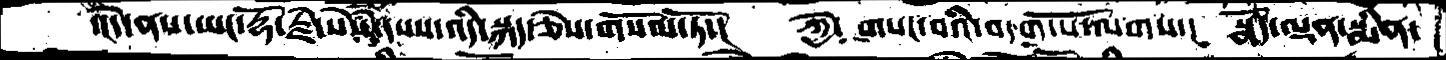་།དེ་ནས་ཡང་རྡོ་རྗེ་སེཾསདསས་འདི་སྐད་ཅེས་གསོལ་ཏོ་།  ཀྱེ་  གསང་བའི་བདག་པོ་ལགས་།  སྣོད་ལྡན་སྨིན་
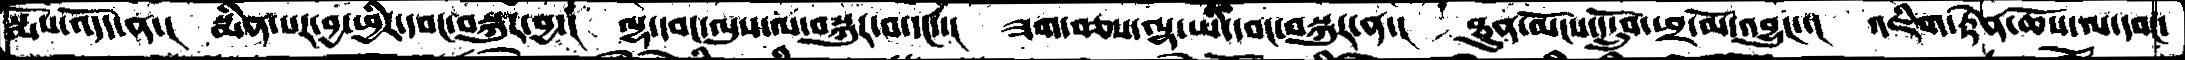སྨོས་འདོད་ན་།  སྨིན་པར་བྱ་ཕྱིར་དབང་བསྐུར་བྱ་།  ལྷ་དབང་ལུས་ལ་བསྐུར་བ་དང་་།  ཟག་བཅས་ལྷ་ཡི་དབང་བསྐུར་ན་།  ཐུན་མོངས་དངྲོུབ་ཕྲ་མོ་འབྱུང་་།  འཇིག་རྟེན་ཆོས་ལ་དབང་
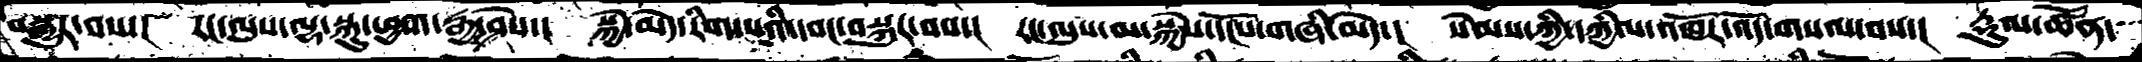བསྒྱུར་བས་།  རང་ལུས་ལྷ་སྐུ་ཕྱག་རྒྱ་ཤེས་།  སྐྱེ་མེད་རིག་པའི་དབང་བསྐུར་བས་།  རང་ལུས་མ་སྐྱེས་དངོས་གཞི་མེད་།  སེམས་ཀྱི་དཀྱིལ་འཁོར་འོད་གསལ་བས་།  རྡུལ་ཚོན་
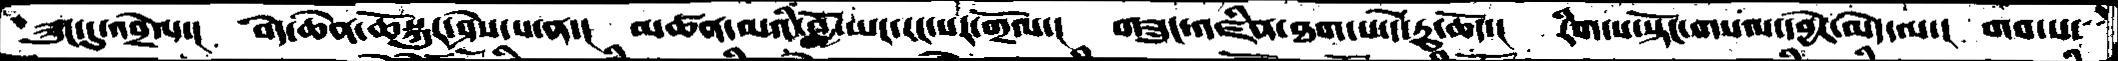ཟུང་དུ་འབྲེལ་།  བདེ་ཆེན་ཆོསྐུར་ཤེས་པ་ན་།  མཚན་མའི་བློ་ཡང་རང་སར་གྲོལ་།  གཟུང་འཛིན་ཐག་པ་དེ་རུ་ཆོད་།  རིག་པ་སྟོང་གསལ་དབྱེར་མེད་ལ་།  གབ་པ་
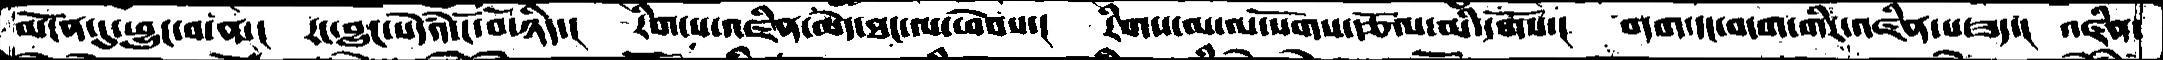མངོན་དུ་ཕྱུང་བ་ན་།  རང་བྱུང་སེདཾའ་ངོ་བོ་ཉིད་།  རིག་པ་འཛིན་མེད་ཐང་ལ་ཕེབས་།  རིགས་མ་ལ་སོགས་རྩོལ་མི་དགོས་།  བདག་དང་བདག་གིར་འཛིན་པ་ཟད་།  འཛིན་
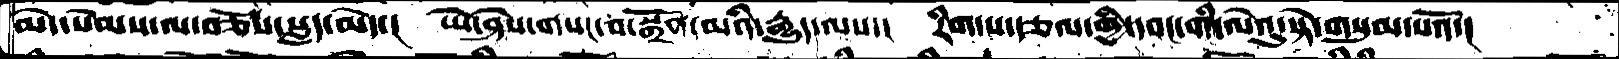མེད་སེམས་ལ་བཅོས་སླད་མེད་།  ཡེ་ཤེས་གསང་བ་སྒྲོན་མའི་རྒྱུད་ལས་།  རིག་པ་རྩལ་གྱི་དབང་གི་ལེའུ་སྟེ་གསུམ་པའོ་།
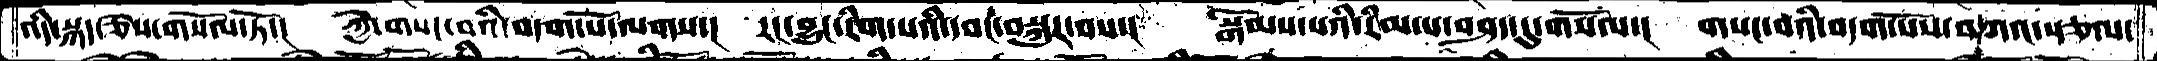འདི་སྐད་ཅེས་གསོལ་ཏོ་།  ཀྱེ་གསང་བའི་བདག་པོ་ལགས་།  རང་བྱུང་རིག་པའི་དབང་བསྐུར་བས་།  སྒོམས་པའི་རིམ་པ་བཤད་དུ་གསོལ་།  གསང་བའི་བདག་པོས་བཀའ་སྩལ་
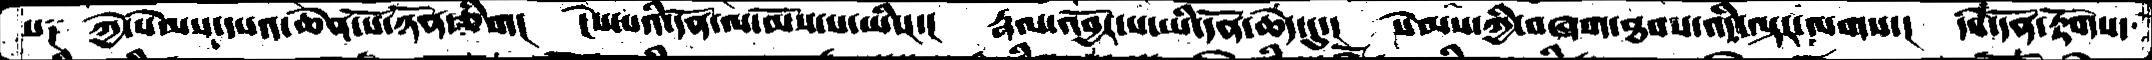པ༑  ཀྱེ་སེམས་དཔའ་ཆེན་པོ་ཉོན་ཅིག།  ངེས་པའི་དོན་ལ་མོས་པ་ཡིས་།  རྣལ་འབྱོར་པ་ཡི་དོན་ཆེད་དུ་།  སེམས་ཀྱི་ཞག་ཐབས་འདི་ལྟར་ལགས་།  དཔེ་དོན་རྟོགས་
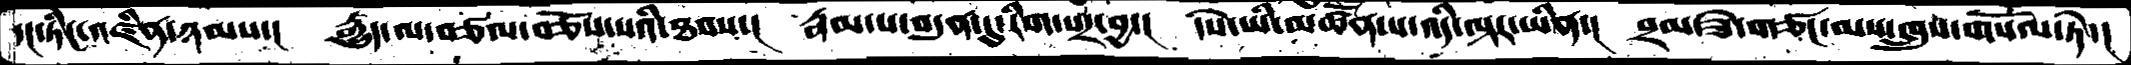དང་ཏིང་འཛིན་ཉམས་།  རྒྱུད་ལ་བཙལ་བཅོས་པའི་ཐབས་།  རྣམ་པ་བདུན་དུ་རིག་པར་བྱ་།  དཔེ་ཡི་མཚོན་པ་འདི་ལྟར་ཡིན་།  བྲམ་ཟེ་གཙང་མས་ཁྲུས་གསོལ་ཏེ་།
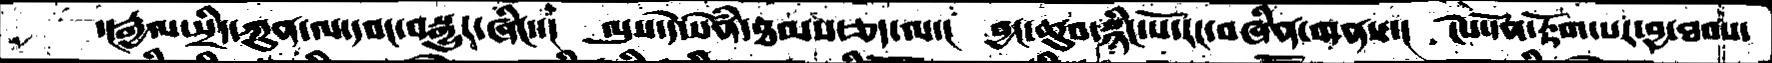་།རྒྱལ་སྲིད་ཀུན་ལ་དབང་བསྒྱུར་ཞིང་་།  ལུས་དེ་སེཾན་ཐམས་ཅད་ལ་།  བྱང་ཆུབ་སྙིང་པོ་རང་བཞིན་གནས་།  ངེས་དོན་རྟོག་པར་བྱ་ཐབས་
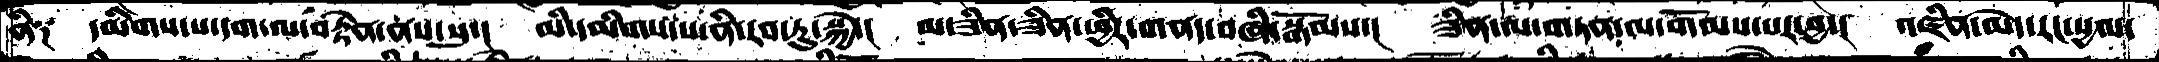ནི༑  དམིགས་པ་དག་ལ་བརྟེན་ནས་སུ་།  མི་དམིགས་པ་ནི་རབ་ཏུ་སྐྱེ་།  མ་ཟིན་ཟིན་ཕྱིར་གནད་བཞི་སྒོམས་།  ཟིན་ལ་གཏན་ལ་གོམས་པར་བྱ་།  འཛིན་མེད་རང་སྱལ་
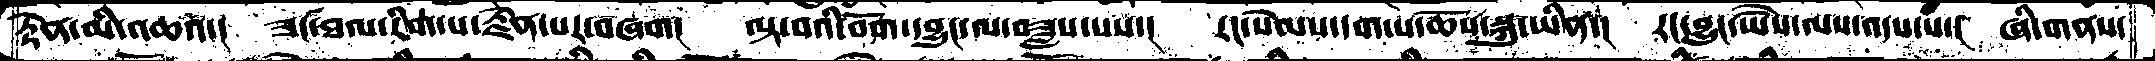རྟེན་མི་འཆའ་།  ཟང་ཐལ་རིག་པ་རྗེན་པར་བཞག།  ལྟ་བའི་བོག་དབྱུང་ལ་བཟླས་པས་།  རང་སེམས་དག་པ་ཆོས་སྐུ་ཡིན་།  རང་བྱུང་ཡཻས་ལས་འདས་པ་།  ཞི་གནས་
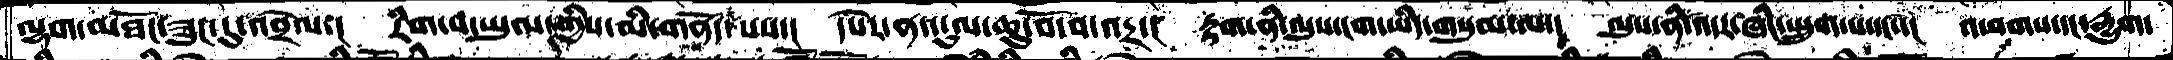ལྷག་མཐོང་ཟུང་དུ་འབྲེལ་།  རིག་པ་ཡུལ་གྱིས་མི་གནོད་པས་།  དཔེར་ན་དངུལ་ཆུ་བོ་བ་འདྲ་།  རྟག་ནི་ལུས་ངག་ཡིད་གསུམ་ལ་།  ལུས་ནི་འདར་ཞིང་སྤྲུག་པ་དང་་།  འཕགས་དང་རྒྱུག་
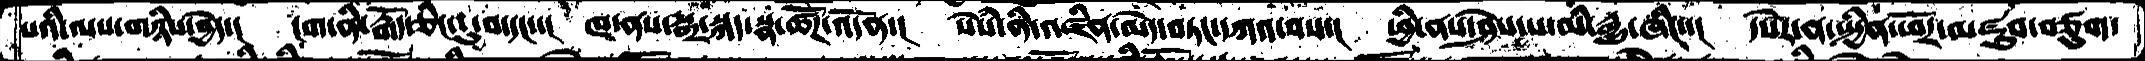པའི་ལས་གཉིས་བྱེད་།  ངག་ནི་རྒོད་ཅིང་ངུ་བ་དང་་།  ཁ་ནས་སྒྲ་སྐད་སྣ་ཚོཌ་འདོན་།  སེཾས་ནི་འཛིན་མེད་བཏང་དཀའ་བས་།  ཕྱི་ནས་ཤེས་པ་མིརྒྱུ་ཞིང་་།  དཔེར་ན་སྤྱིན་ཕོར་མཛུབ་བཙུག་
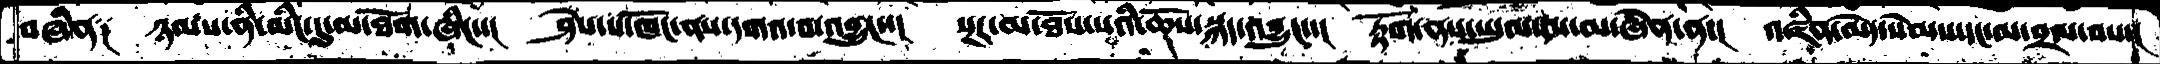བཞིན༑   ཉམས་ནི་མིང་དུ་མ་ཐོག་ཞིང་་།  ཤེས་པ་ཁོང་ནས་དགའ་བ་འབྱུང་་།  སྔར་མ་ཐོས་པའི་ཆོས་སྐད་འབྱུང་་།  རྟོག་ནས་ཡུལ་ལ་མ་ཞེན་ན་།  འཛིན་མེད་སེམས་དང་མ་བྲལ་བས་།
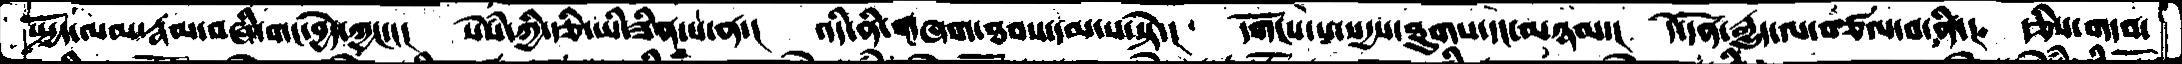སྤྱོད་ལམ་རྣམ་བཞི་གང་བྱེད་ཀྱང་་།  སེཾས་ཀྱི་རྩི་ཡི་ཟིན་པ་ན་།  འདི་ནི་གཞག་ཐབས་དམ་པ་སྟེ་།  དགོངས་པ་སདྱས་ཐུགས་དང་མཉམ་།  དེ་དོན་རྒྱུད་ལ་བཙལ་བ་ནི་།  རྩིས་གདབ་
